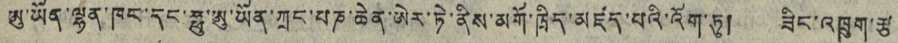ཨུ་ཡོན་ལྷན་ཁང་དང་ཧྥུ་ཨུ་ཡོན་ཀྲང་པཎ་ཆེན་ཨེར་ཏེ་ནིས་མགོ་ཁྲིད་མཛད་པའི་འོག་ཏུ། ཟིང་འཁྲུག་རྩ་
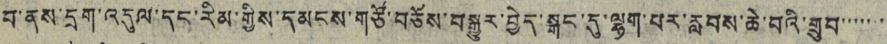བ་ནས་དྲག་འདུལ་དང་རིམ་གྱིས་དམངས་གཙོ་བཅོས་བསྒྱུར་བྱེད་སྒང་དུ་ལྷག་པར་རླབས་ཆེ་བའི་གྲུབ་་་་་་་
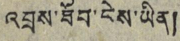འབྲས་ཐོབ་ངེས་ཡིན།
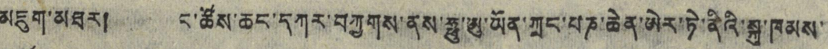མཇུག་མཐར། ང་ཚོས་ཆང་དཀར་བཀྱགས་ནས་ཧྥུ་ཨུ་ཡོན་ཀྲང་པཎ་ཆེན་ཨེར་ཏེ་ནིའི་སྐུ་ཁམས་
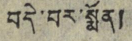བདེ་བར་སྨོན།
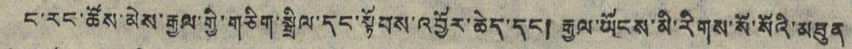ང་རང་ཚོས་མེས་རྒྱལ་གྱི་གཅིག་སྒྲིལ་དང་སྟོབས་འབྱོར་ཆེད་དང། རྒྱལ་ཡོངས་མི་རིགས་སོ་སོའི་མཐུན
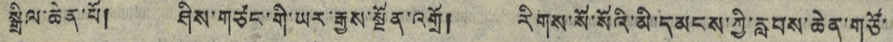སྒྲིལ་ཆེན་པོ། ཤིས་གཙང་གི་ཡར་རྒྱས་སྔོན་འགྲོ། རིགས་སོ་སོའི་མི་དམངས་ཀྱི་རླབས་ཆེན་གཙོ་
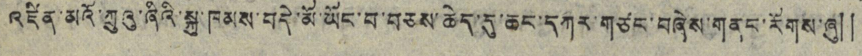འཛིན་མའོ་ཀྲུའུ་ཞིའི་སྐུ་ཁམས་བདེ་མོ་ཡོང་བ་བཅས་ཆེད་དུ་ཆང་དཀར་གཙང་བཞེས་གནང་རོགས་ཞུ༎
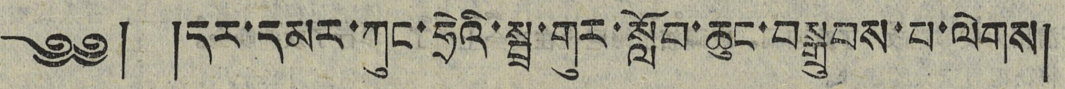༄༅། །དར་དམར་ཀུང་ཧྲེའི་སྦྲ་གུར་སློབ་ཆུང་བསྒྲུབས་པ་ལེགས།
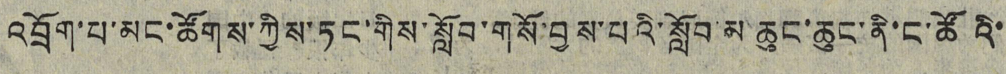འབྲོག་པ་མང་ཚོགས་ཀྱིས་ཏང་གིས་སློབ་གསོ་བྱས་པའི་སློབ་མ་ཆུང་ཆུང་ནི་ང་ཚོའི་
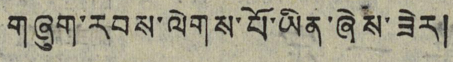གཞུག་རབས་ལེགས་པོ་ཡིན་ཞེས་ཟེར།
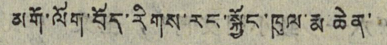མགོ་ལོག་བོད་རིགས་རང་སྐྱོང་ཁུལ་རྨ་ཆེན་་
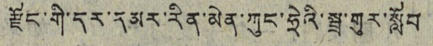རྫོང་གི་དར་དམར་རིན་མེན་ཀུང་ཧྲེའི་སྦྲ་གུར་སློབ
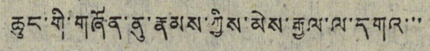ཆུང་གི་གཞོན་ནུ་རྣམས་ཀྱིས་མེས་རྒྱལ་ལ་དགའ་་་
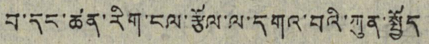བ་དང་ཚན་རིག་ངལ་རྩོལ་ལ་དགའ་བའི་ཀུན་སྤྱོད
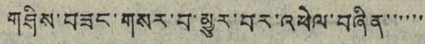གཤིས་བཟང་གསར་བ་མྱུར་བར་འཕེལ་བཞིན་་་་་་
